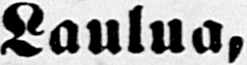Laulua,
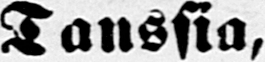Tanssia,
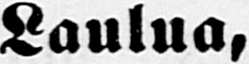Laulua,
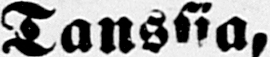Tanssia,
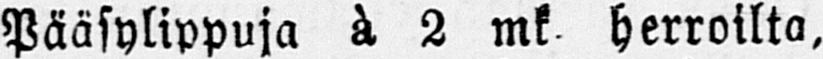Pääsylippuja à 2 mk. herroilta,
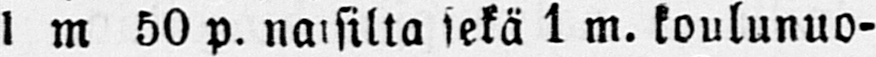1 m 50 p. naisilta sekä 1 m. koulunuo-
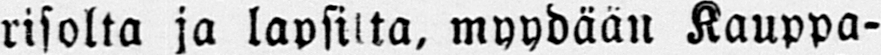risolta ja lapsilta, myydään Kauppa-
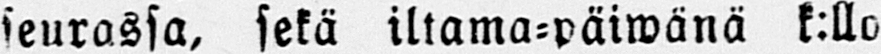seurassa, sekä iltama-päiwänä k:llo
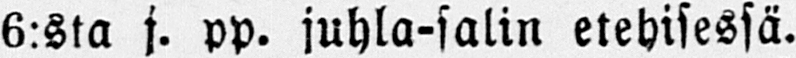6:sta j. pp. juhla-salin etehisessä.
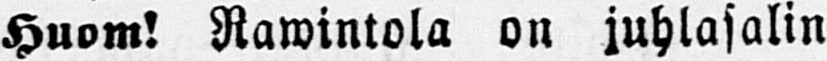Huom! Rawintola on juhlasalin
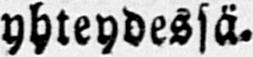yhteydessä.
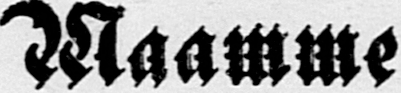Maamme Wiikkosauoma.
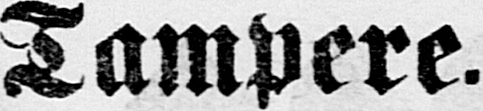Tampere.
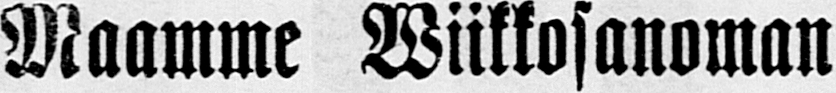Maamme Wiikkosanoman
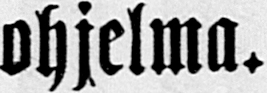ohjelma.
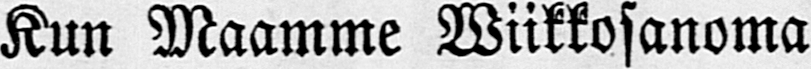Kun Maamme Wiikkosanoma
